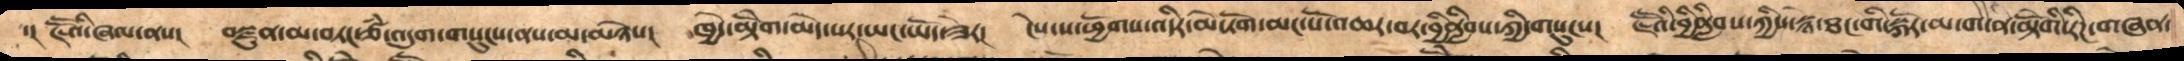་། ཇཽའི་ཞལ་ནས།   བསྫུན་མ་བཏང་ཙཾ་འདུག་གསུངས་ནས་མ་མཉེས།   ཁྱོད་མྟེོག་མེད་པར་ཡང་ཡོད་ཟེར།   ངེས་ས་ཕྱོགས་འདིར་མེ་ཏོག་མང་པོ་འཆར་བར་བྱིནླིབས་ཀྱི་གསུངས།   ཇཽའི་བྱིནླིབས་ཀྱིས་སྙེ་ཐང་གི་སྐོར་མ་ག་ན་མྟེོགི་རིཌ་གཞན་
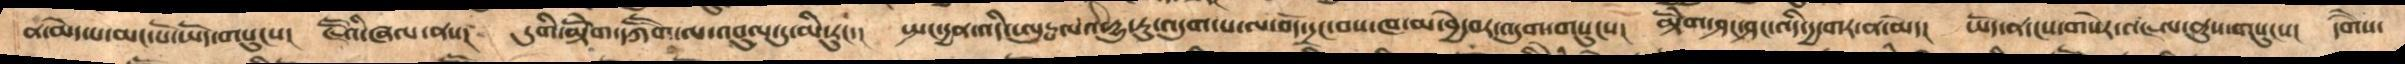ན་མེད་པ་མང་པོ་ཡོད་གསུངས།   ཇཽའི་ཞལ་ནས།   དུགི་མྟེགོ་དཀཽག་ལ་དབུལ་དུ་མི་རུང་།   སྤང་དྱན་འདི་ཨུཏྤལའི་དྱུ་རུ་འདུག་པ་ལ་བོད་དྲང་བས་ཁ་མ་བྱེ་བར་འདུག་གསུངས།   མྟེགོ་ཤང་ཤང་འདི་དྱ་གར་ན་མེད།   ཡོད་ན་ངསགསེར་མཇལ་ནུས་གསུངས།  དགཻས་
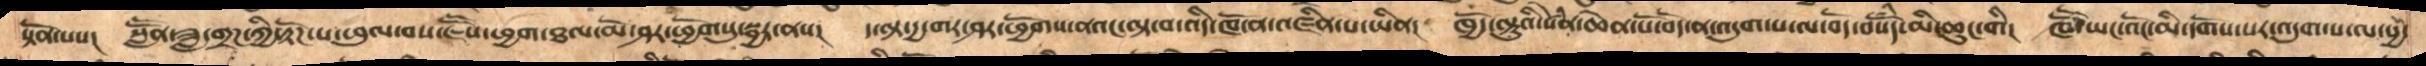སྟོན་པས།   སླཽན་ཟླ་གྲཌ་ཀྱི་རྟོཌ་པ་ཕུལ་བས་ཇཽས་ཕྱག་ཐལ་མོ་ཤར་ཕྱོགསུ་སྦྱར་ནས།  ད་ལྟ་དྱ་གར་ཤར་ཕྱོགས་ནའང་ལྟ་བ་འདི་ཁོ་ན་འཛིན་པ་ཡིན།  ཁྱོད་ལྟུའི་སེཾན་ཆེན་པོ་བོད་ན་འདུག་པ་ལ་བོད་བསོཾད་མི་ཆུང་གི།   ཁཽ་ཡང་འོང་མི་དགོས་པར་འདུག་པ་ལ་སྱཾ་
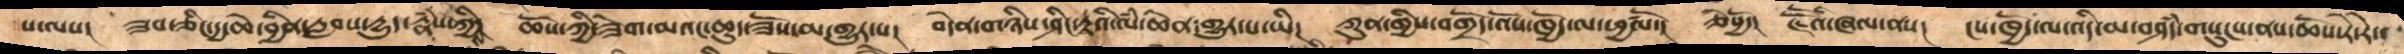པ་ལས།  ཟབ་ཅིང་དྱ་ཆེ་བྱིན་རླབས་དྱུད་རྣཾས་ཀྱིས།   ཆོས་ཀྱི་ཟེག་མའང་ཆུད་ཟོས་མ་གྱུར་པ།   བདེན་གཉིས་ཤིང་རྟའི་ལཾ་ཆེན་གྱུར་པ་ཡི།  ཀུན་གྱིས་བགྲོད་འོས་ཁྱོད་ལ་ཕྱཚལོ།  ཅེསྱོ་།  ཇཽའི་ཞལ་ནས།  ངས་ཁྱོད་ལ་འདི་མ་བཤདཾ་གསུངས་ནས་ཆོས་རེ་རེ་
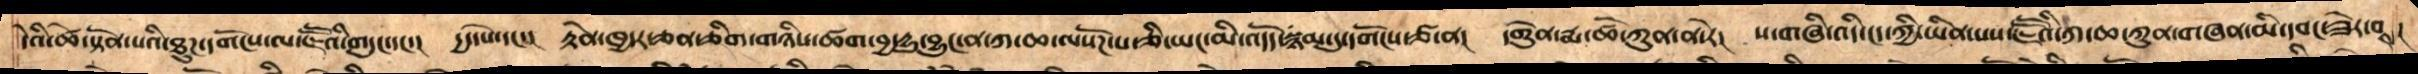དེའི་ཚེ་སྟོན་པའི་ཐུཌ་དགོངས་ལ་ཇཽའི་གདུང་དང་།  དྱ་དཔེ་དང་།  རྟེན་ཁྱདར་ཅན་ཅིག་གཉིས་ཚག་བྱ་དྱུ་བྱུང་ན་ཀ་ཆ་ལསོཌ་པ་ཅི་ཡང་མི་འདོད་སྙམ་དུ་དགོངས་ཙ་ན།  དགེུན་རྨ་ཚོ་ཀུན་ན་རེ།  ས་གཞི་འདི་ངད་ཀྱི་ཡིན་པས་ཇཽའི་ཀ་ཆ་ཀུན་གཞན་མི་དབང་ཟེར་བས།
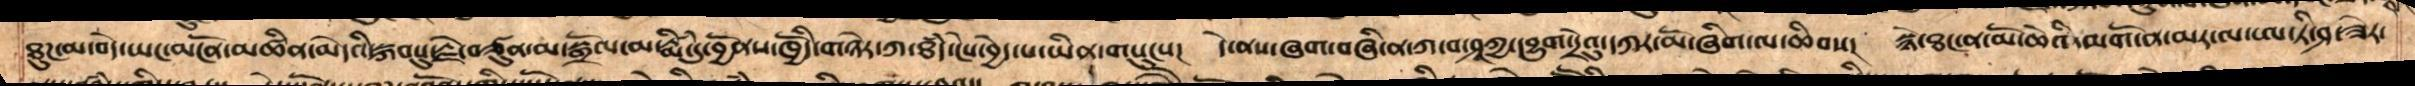ཐུཌ་མ་བདེ་ཡང་མངོན་མཚིན་མེདའི་སྐབསུ་རྗེ་བཙུན་མ་སྒྲོལ་མ་རྨིཾ་དུ་བྱོནས་ཁྱོདི་གཉེར་ཀ་ཐཾད་ངེས་བྱེད་པ་ཡིན་གསུངས།  དེ་ནས་ཞག་བཞི་ན་ཀ་བ་ཤཱཀྱ་དབྱུག་དྲེའུ་དཀར་མོ་ཞིག་ལ་ཆིབས།   སྙེ་ཐང་ན་མོ་ཆེའི་མགོ་ན་མར་ལ་ཨ་ཏི་ཤ་ཟེར་
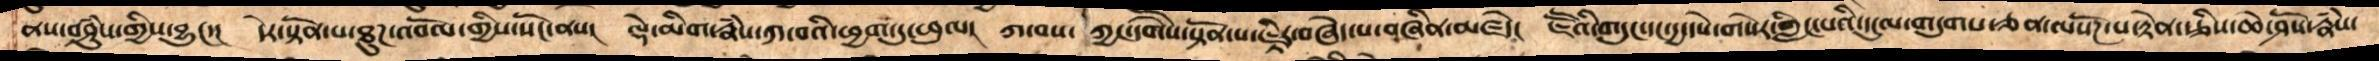ནས་བཤུཾས་གྱིས་བྱུང་།   དེར་སྟོན་པ་ཐུཌ་འབོལ་གྱིས་སོང་ནས།   ལྡེ་མིག་རྣཾས་ཀ་བའི་ཕྱག་དུ་ཕུལ།  ཀ་བས་ཀྱང་དགཻས་སྟོན་པ་ཇྟིར་བཞེད་པ་བཞིན་མཛདེ།  ཇཽའི་གདུང་དང་དྱ་དཔེ་གསེར་གླིང་པའི་དངུལ་གདུགས་ཅན་ལསོཌ་པ་རྟེན་རྩིས་ཆེ་ཤོས་རྣཾས་
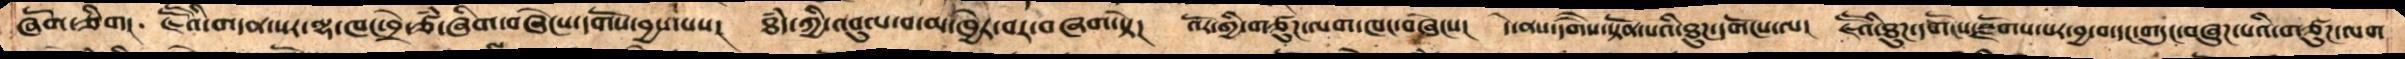ཞོག་ཅིག།   ཇཽའི་གདན་སར་ལྷ་ཁང་བྲེ་ཙཾ་ཞིག་བཞེང་དགོས་བྱས་པས།   ཐཾད་ཀྱི་འབུལ་བ་མ་ཁྱེར་བར་བཞག་སྟེ།  འོར་གྱི་གཙུཌ་ལག་ཁང་བཞེངས།   དེ་ནས་དགཻས་སྟོན་པའི་ཐུཌ་དགོངས་ལ།  ཇཽའི་ཐུཌ་དགོངས་སྫོགས་པར་བྱ་བ་དང་གདུང་བཞུཌ་པའི་གཙུཌ་ལག
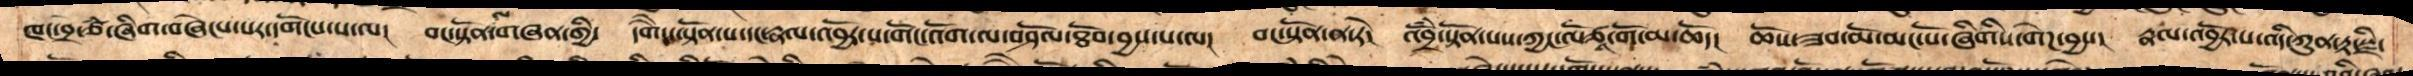ཁང་བྲ་ཙཾ་ཞིག་བཞེངས་པར་དགོངས་པ་ལ། བང་སྟོན་ལ་གཞན་གྱིས། དགཻས་སྟོན་པ་དང་རྣལ་འབྱོར་པ་གོང་འོག་ལ་བཤོལ་ཐོབ་བྱས་པ་ལ། བང་སྟོན་ན་རེ། འབྲོཾ་སྟོན་པས་ཀྱང་ལོཙཱ་གོ་མ་ཆོད། ཆོས་ཟབ་མོ་མང་པོ་ཞིགི་གེཌ་བྱས། རྣལ་འབྱོར་པ་འདི་ཀུན་རྟ་སྫི་
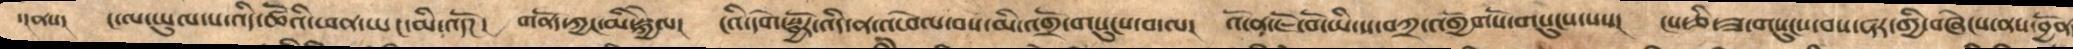་།ནས།   ང་ལ་ཡུལ་པ་འདི་ཚོའི་ཕན་ཡང་མི་འདོཌ།  གནོད་ཀྱང་མི་སྐྱེལ།  ངའི་དགེ་སྦྱོར་འདི་ན་འཕེལ་བས་མི་འགྲོ་གསུངས་བ་ལ།   འོ་ན་ཇོ་བོ་ཡི་ས་བཀྲ་འགྱོགསོ་གསུངས་པས།   ངས་ཅི་ཟ་གསུངས་བས་ཧར་གྱི་བཞེངས་ནས་བྱོན
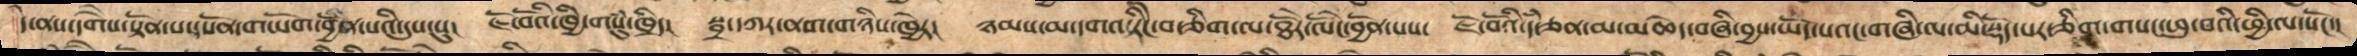དེ་ནས་དགཻས་སྟོན་པ་དཔོན་གཡོག་བྱོན་པའིདུས་སུ།  ཇོ་བོའི་ཁྱི་གསུཾ་ཁྲིད།  སྦྲ་དཀར་ནག་གཉིས་ཁྱེར།  ཉམས་མ་དགའ་ཏིངེ་བ་ཅིག་ལ་ཐོརེ་ལོངེ་བྱོན་པས།   ཇོ་བོའི་དཾ་ཅན་མ་མཆེད་བཞི་བྱས་ཡོད་པའང་གཞི་ལ་མི་སྡོད་པར་ཅིག་གསང་ཕུ་བའི་ཕྱི་ལ་སོང་།
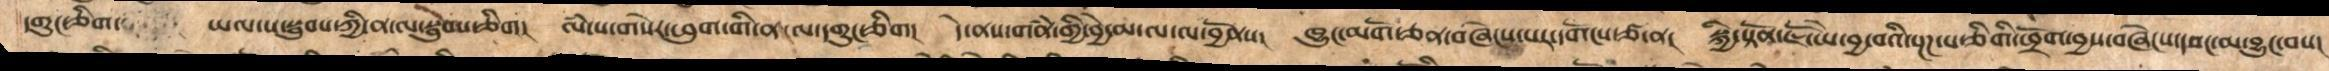དགུང་ཅིག་   ཡལ་པ་སྦུབས་ཀྱི་ན་ལ་སྦེུབས་ཅིག   ལཾ་ས་གསེར་ཕུག་གི་ན་ལ་དགུང་ཅིག།   དེ་ནས་གནཾ་གྱི་བྱེ་མ་ལ་ལ་བྱོནས།   ཁྱུང་མགོ་ཅན་བཞེངས་པར་དགོངས་ཙ་ན།  སྐྱི་སྟོན་ཇོ་ཡེ་བྱ་བའི་སྔཌ་པ་ཅིགི་ཕྲོག་བྱས་བཞེངས་དབང་མ་བྱུང་བས།
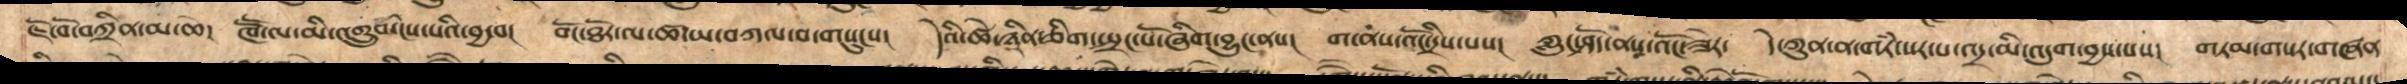ཇོ་བོ་བཀྲིན་མ་ཆེ།   ཁཽ་ལ་མི་འགྲུབ་ངེས་པའི་བྱ་བ།  བོང་ཐོར་ལ་ཚ་ཡ་བཀལ་བ་གསུངས།  དེའི་ཚེ་ཉིན་ཅིག་སྤྲང་པོ་ཞིག་བྱུང་ནས།  ག་ནས་འོང་དྲིས་པས།  ཀླུང་ཤོད་ནས་འོང་ཟེར་  དེ་ཀུན་ན་གཏཾ་སར་པ་འདྲ་མི་འདུག་བྱས་པས།   གཏམ་གསར་གཞན
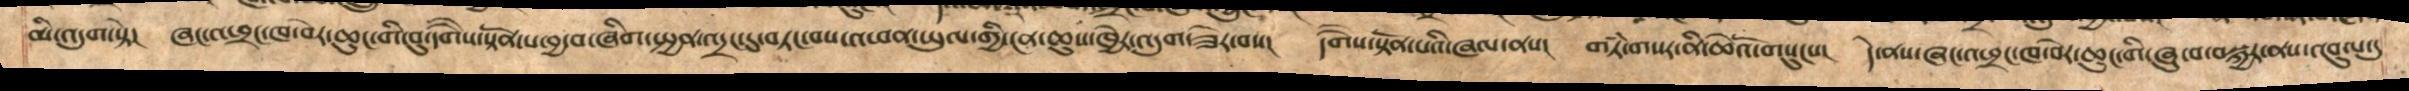མི་འདུག་སྟེ།   ཞང་འཕྲང་ཁ་བེར་ཆུང་གི་བུ་དགཻས་སྟོན་པ་བྱ་བ་ཞིག་སྤྱན་འདྲང་དུ་བཏང་བས་འཕན་ཡུལ་གྱི་ངན་ཆུས་ཁྱེར་འདུག་ཟེར་བས།   དགཻས་སྟོན་པའི་ཞལ་ནས།   གཏཾ་གསར་ནི་ཆེའོ་གསུངས།  དེ་ནས་ཞང་འཕྲང་ཁ་བེར་ཆུང་གི་ཞུ་བ་བསྐྱར་ནས་འབུལ་དུ
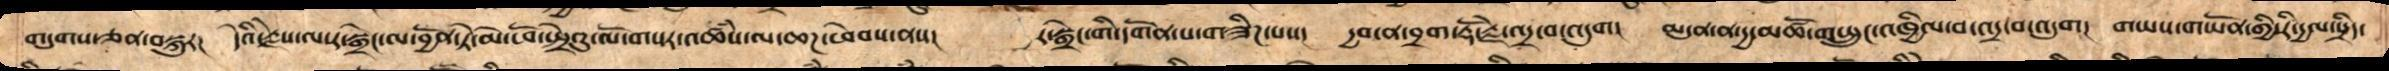གདུགས་ཅན་བསྐུར།  དེའི་རྗེས་ལ་ར་སྒྲེང་ལ་བྱོན་ཏེ་མེ་ཕོ་སྤྲེའུ་ལོ་གསར་འཚཾས་ལ་ཆཌ་ཕེབས་ནས།   ར་སྒྲེང་གི་དགོན་པ་གཟིཌ་པས།   དྱབ་ན་བྲག་རྡོ་རྗེ་འདྲ་བ་འདུག   མདུན་ན་དྱ་མཚོ་གཡྲུང་འཁྱིལ་བ་འདྲ་བ་འདུག།   གཡས་གཡོན་གྱི་རི་དྱལ་སྲིད་
